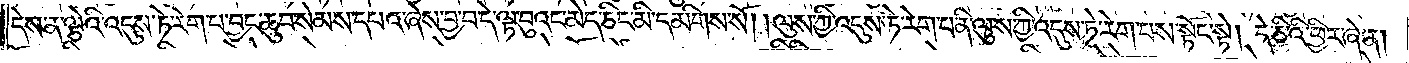དེས་ན་ལྕེའི་འདུས་ཏེ་རེག་པ་བྱང་ཆུབ་སེམས་དཔའ་ཞེས་བྱ་བ་དེ་ལྟ་བུའང་མེད་ཅིང་མི་དམིགས་སོ། །ལུས་ཀྱི་འདུས་ཏེ་རེག་པ་ནི་ལུས་ཀྱི་འདུས་ཏེ་རེག་པས་སྟོང་སྟེ། དེ་ཅིའི་ཕྱིར་ཞེ་ན།
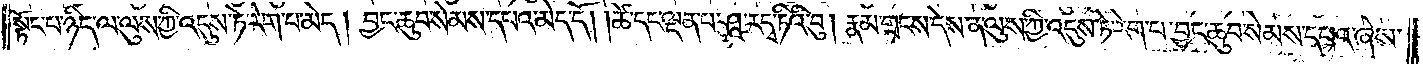སྟོང་པ་ཉིད་ལ་ལུས་ཀྱི་འདུས་ཏེ་རེག་པ་མེད། བྱང་ཆུབ་སེམས་དཔའ་མེད་དོ། །ཚེ་དང་ལྡན་པ་ཤཱ་ར་དྭ་ཏིའི་བུ། རྣམ་གྲངས་དེས་ན་ལུས་ཀྱི་འདུས་ཏེ་རེག་པ་བྱང་ཆུབ་སེམས་དཔའ་ཞེས་
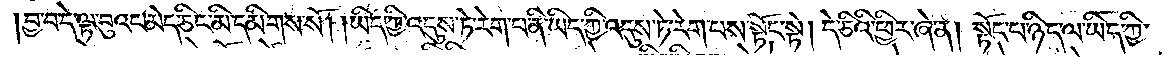བྱ་བ་དེ་ལྟ་བུའང་མེད་ཅིང་མི་དམིགས་སོ། །ཡིད་ཀྱི་འདུས་ཏེ་རེག་པ་ནི་ཡིད་ཀྱི་འདུས་ཏེ་རེག་པས་སྟོང་སྟེ། དེ་ཅིའི་ཕྱིར་ཞེ་ན། སྟོང་པ་ཉིད་ལ་ཡིད་ཀྱི་
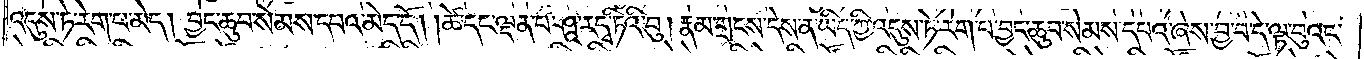འདུས་ཏེ་རེག་པ་མེད། བྱང་ཆུབ་སེམས་དཔའ་མེད་དོ། །ཚེ་དང་ལྡན་པ་ཤཱ་ར་དྭ་ཏིའི་བུ། རྣམ་གྲངས་དེས་ན་ཡིད་ཀྱི་འདུས་ཏེ་རེག་པ་བྱང་ཆུབ་སེམས་དཔའ་ཞེས་བྱ་བ་དེ་ལྟ་བུའང་
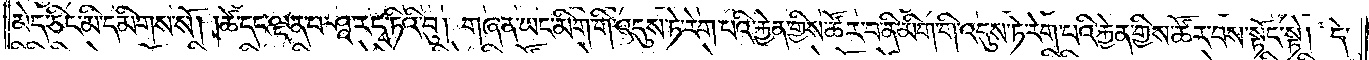མེད་ཅིང་མི་དམིགས་སོ། །ཚེ་དང་ལྡན་པ་ཤཱ་ར་དྭ་ཏིའི་བུ། གཞན་ཡང་མིག་གི་འདུས་ཏེ་རེག་པའི་རྐྱེན་གྱིས་ཚོར་བ་ནི་མིག་གི་འདུས་ཏེ་རེག་པའི་རྐྱེན་གྱིས་ཚོར་བས་སྟོང་སྟེ། དེ་
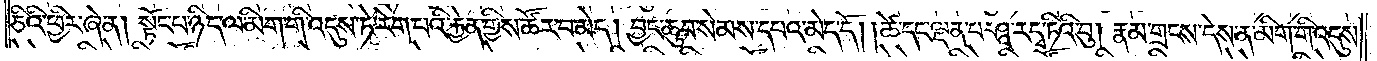ཅིའི་ཕྱིར་ཞེ་ན། སྟོང་པ་ཉིད་ལ་མིག་གི་འདུས་ཏེ་རེག་པའི་རྐྱེན་གྱིས་ཚོར་བ་མེད། བྱང་ཆུབ་སེམས་དཔའ་མེད་དོ། །ཚེ་དང་ལྡན་པ་ཤཱ་ར་དྭ་ཏིའི་བུ། རྣམ་གྲངས་དེས་ན་མིག་གི་འདུས་
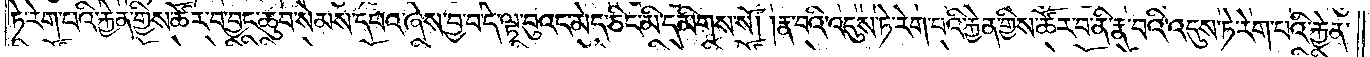ཏེ་རེག་པའི་རྐྱེན་གྱིས་ཚོར་བ་བྱང་ཆུབ་སེམས་དཔའ་ཞེས་བྱ་བ་དེ་ལྟ་བུའང་མེད་ཅིང་མི་དམིགས་སོ། །རྣ་བའི་འདུས་ཏེ་རེག་པའི་རྐྱེན་གྱིས་ཚོར་བ་ནི་རྣ་བའི་འདུས་ཏེ་རེག་པའི་རྐྱེན་
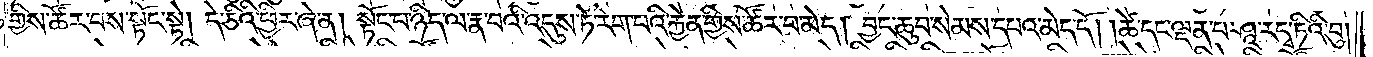གྱིས་ཚོར་བས་སྟོང་སྟེ། དེ་ཅིའི་ཕྱིར་ཞེ་ན། སྟོང་པ་ཉིད་ལ་རྣ་བའི་འདུས་ཏེ་རེག་པའི་རྐྱེན་གྱིས་ཚོར་བ་མེད། བྱང་ཆུབ་སེམས་དཔའ་མེད་དོ། །ཚེ་དང་ལྡན་པ་ཤཱ་ར་དྭ་ཏིའི་བུ།
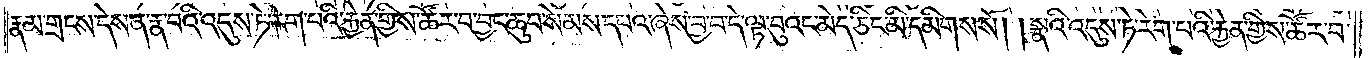རྣམ་གྲངས་དེས་ན་རྣ་བའི་འདུས་ཏེ་རེག་པའི་རྐྱེན་གྱིས་ཚོར་བ་བྱང་ཆུབ་སེམས་དཔའ་ཞེས་བྱ་བ་དེ་ལྟ་བུའང་མེད་ཅིང་མི་དམིགས་སོ། །སྣའི་འདུས་ཏེ་རེག་པའི་རྐྱེན་གྱིས་ཚོར་བ་
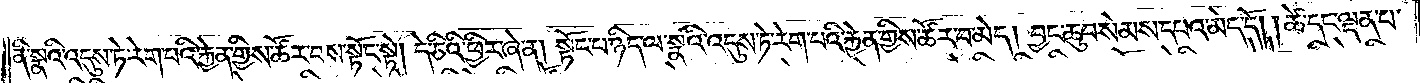ནི་སྣའི་འདུས་ཏེ་རེག་པའི་རྐྱེན་གྱིས་ཚོར་བས་སྟོང་སྟེ། དེ་ཅིའི་ཕྱིར་ཞེ་ན། སྟོང་པ་ཉིད་ལ་སྣའི་འདུས་ཏེ་རེག་པའི་རྐྱེན་གྱིས་ཚོར་བ་མེད། བྱང་ཆུབ་སེམས་དཔའ་མེད་དོ། །ཚེ་དང་ལྡན་པ་
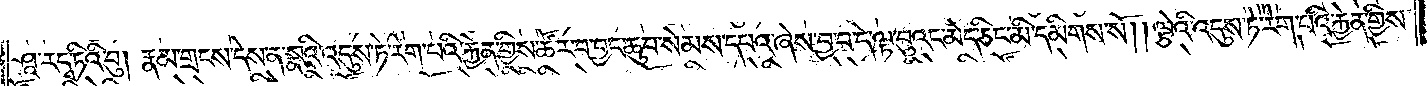ཤཱ་ར་དྭ་ཏིའི་བུ། རྣམ་གྲངས་དེས་ན་སྣའི་འདུས་ཏེ་རེག་པའི་རྐྱེན་གྱིས་ཚོར་བ་བྱང་ཆུབ་སེམས་དཔའ་ཞེས་བྱ་བ་དེ་ལྟ་བུའང་མེད་ཅིང་མི་དམིགས་སོ། ལྕེའི་འདུས་ཏེ་རེག་པའི་རྐྱེན་གྱིས་
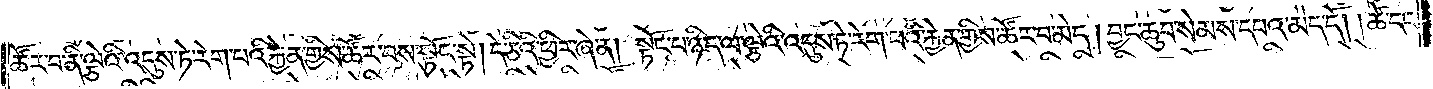ཚོར་བ་ནི་ལྕེའི་འདུས་ཏེ་རེག་པའི་རྐྱེན་གྱིས་ཚོར་བས་སྟོང་སྟེ། །དེ་ཅིའི་ཕྱིར་ཞེ་ན། སྟོང་པ་ཉིད་ལ་ལྕེའི་འདུས་ཏེ་རེག་པའི་རྐྱེན་གྱིས་ཚོར་བ་མེད། བྱང་ཆུབ་སེམས་དཔའ་མེད་དོ། །ཚེ་དང་
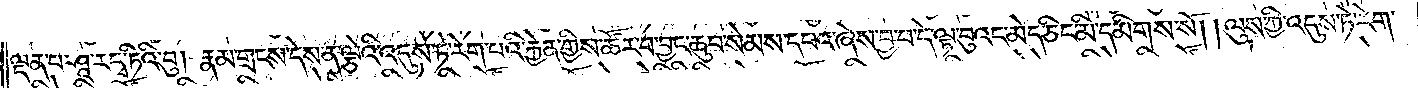ལྡན་པ་ཤཱ་ར་དྭ་ཏིའི་བུ་རྣམ་གྲངས་དེས་ན་ལྕེའི་འདུས་ཏེ་རེག་པའི་རྐྱེན་གྱིས་ཚོར་བ་བྱང་ཆུབ་སེམས་དཔའ་ཞེས་བྱ་བ་དེ་ལྟ་བུའང་མེད་ཅིང་མི་དམིགས་སོ། །ལུས་ཀྱི་འདུས་ཏེ་རེག་
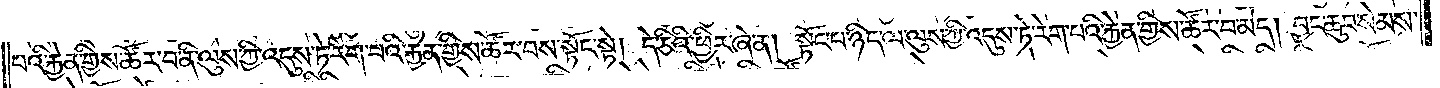པའི་རྐྱེན་གྱིས་ཚོར་བ་ནི་ལུས་ཀྱི་འདུས་ཏེ་རེག་པའི་རྐྱེན་གྱིས་ཚོར་བས་སྟོང་སྟེ། དེ་ཅིའི་ཕྱིར་ཞེ་ན། སྟོང་པ་ཉིད་ལ་ལུས་ཀྱི་འདུས་ཏེ་རེག་པའི་རྐྱེན་གྱིས་ཚོར་བ་མེད། བྱང་ཆུབ་སེམས་
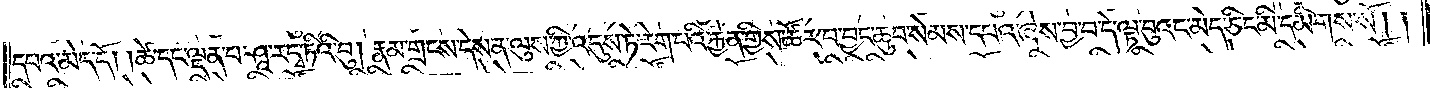དཔའ་མེད་དོ། །ཚེ་དང་ལྡན་པ་ཤཱ་ར་དྭ་ཏིའི་བུ། རྣམ་གྲངས་དེས་ན་ལུས་ཀྱི་འདུས་ཏེ་རེག་པའི་རྐྱེན་གྱིས་ཚོར་བ་བྱང་ཆུབ་སེམས་དཔའ་ཞེས་བྱ་བ་དེ་ལྟ་བུའང་མེད་ཅིང་མི་དམིགས་སོ། །
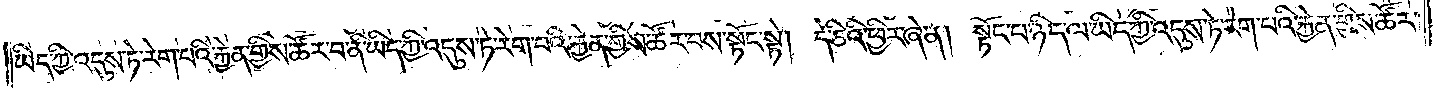ཡིད་ཀྱི་འདུས་ཏེ་རེག་པའི་རྐྱེན་གྱིས་ཚོར་བ་ནི་ཡིད་ཀྱི་འདུས་ཏེ་རེག་པའི་རྐྱེན་གྱིས་ཚོར་བས་སྟོང་སྟེ། དེ་ཅིའི་ཕྱིར་ཞེ་ན། སྟོང་པ་ཉིད་ལ་ཡིད་ཀྱི་འདུས་ཏེ་རེག་པའི་རྐྱེན་གྱིས་ཚོར་
